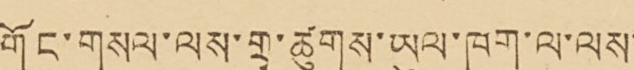གོང་གསལ་ལས་གྲྭ་ཚུགས་ཡུལ་ཁག་ལ་ལས་་
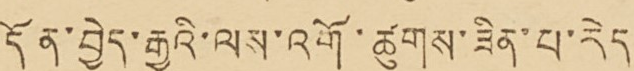དོན་བྱེད་རྒྱུའི་ལས་འགོ་ཚུགས་ཟིན་པ་རེད།
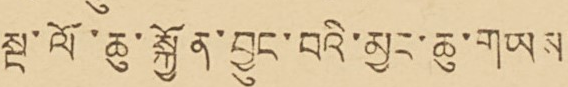སྔ་ལོ་ཆུ་སྐྱོན་བྱུང་བའི་མྱང་ཆུ་གཡས་་
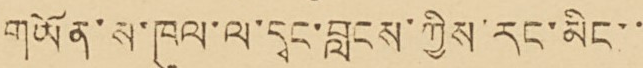གཡོན་ས་ཁུལ་ལ་དྭང་བླངས་ཀྱིས་རང་མིང་་་
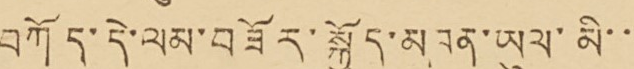བཀོད་དེ་ལམ་བཟོར་སྐྱོད་མཁན་ཡུལ་མི་་་
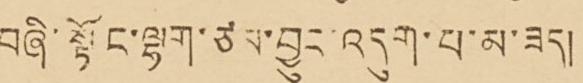བཞི་སྟོང་ལྷག་ཙམ་བྱུང་འདུག་པ་མ་ཟད།
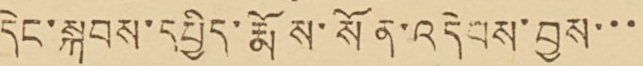དེང་སྐབས་དཔྱིད་རྨོས་སོན་འདེབས་བྱས་་་་
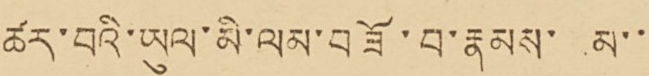ཚར་བའི་ཡུལ་མི་ལམ་བཟོ་བ་རྣམས་ མ་་་
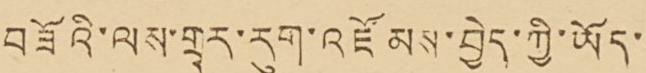བཟོའི་ལས་གྲྭར་རུག་འཇོམས་བྱེད་ཀྱི་ཡོད་་
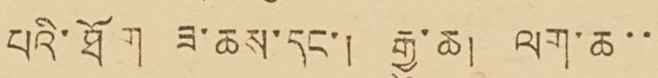པའི་ཐོག ཟ་ཆས་དང་། རྒྱུ་ཆ། ལག་ཆ་་་
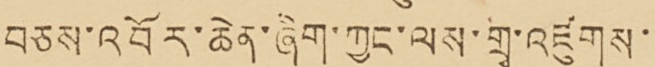བཅས་འབོར་ཆེན་ཞིག་ཀྱང་ལས་གྲྭ་འཛུགས་་
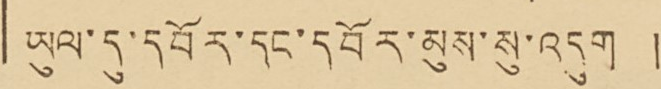ཡུལ་དུ་དབོར་དང་དབོར་མུས་སུ་འདུག། །
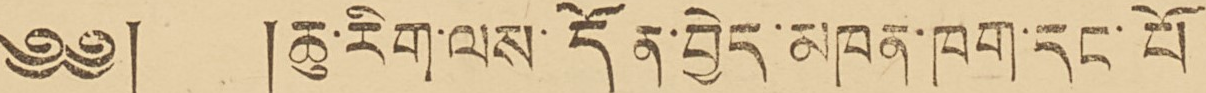༄༅། །ཆུ་རིག་ལས་དོན་བྱེད་མཁན་ཁག་དང་པོ་
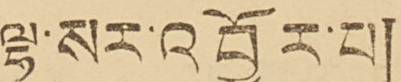ལྷ་སར་འབྱོར་པ།
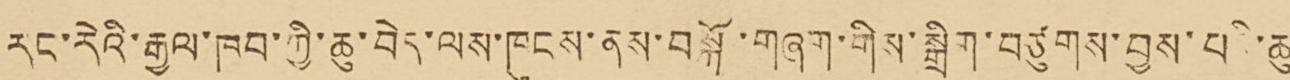རང་རེའི་རྒྱལ་ཁབ་ཀྱི་ཆུ་བེད་ལས་ཁུངས་ནས་བསྐོ་གཞག་གིས་སྒྲིག་བཙུགས་བྱས་པའི་ཆུ་་
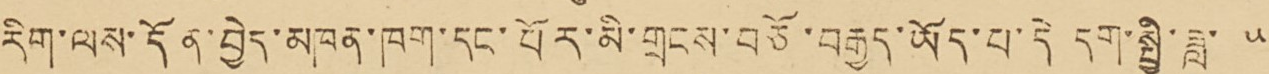རིག་ལས་དོན་བྱེད་མཁན་ཁག་དང་པོར་མི་གྲངས་བཅོ་བརྒྱད་ཡོད་པ་དེ་དག་སྤྱི་ཟླ་ ༥
